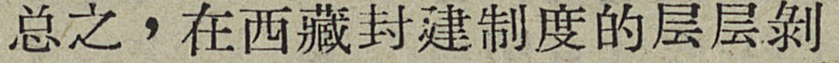总支，在西藏封建制度的层层剝
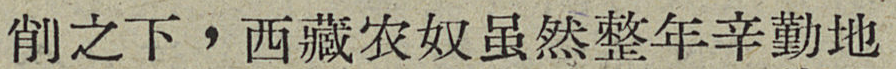削之下，西藏农奴虽然整年辛勤地
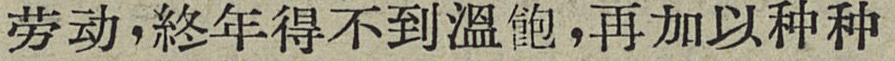劳动，終年得不到溫飽，再加以种种
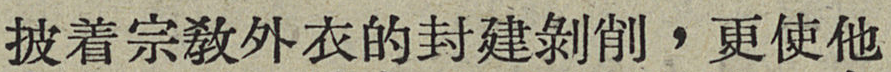披着宗敎外衣的封建剝削，更使他
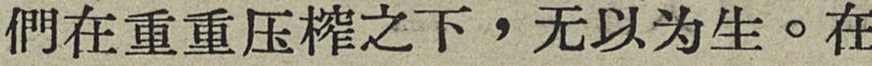們在重重压榨之下，无以为生。在
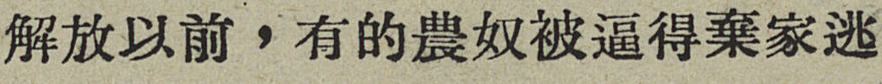解放以前，有的農奴被逼得棄家逃
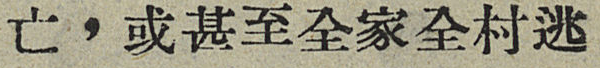亡，或甚至全家全村逃
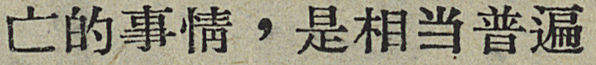亡的事情，是相当普遍
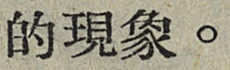的現象。
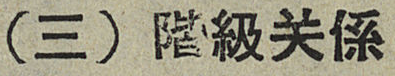（三）階級关係
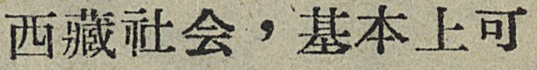西藏社会，基本上可
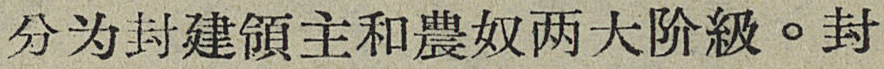分为封建領主和農奴兩大阶級。封
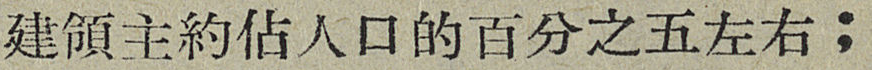建領主約佔人口的百分之五左右；
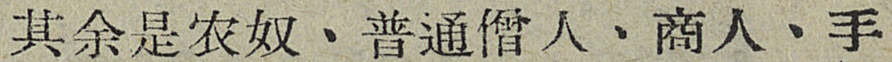其余是农奴、普通僧人、商人、手
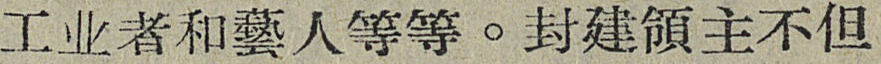工业者和藝人等等。封建領主不但
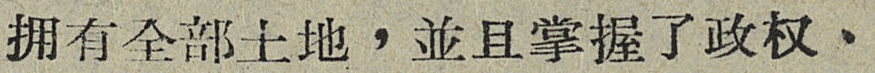拥有全部土地，並且掌握了政权、
